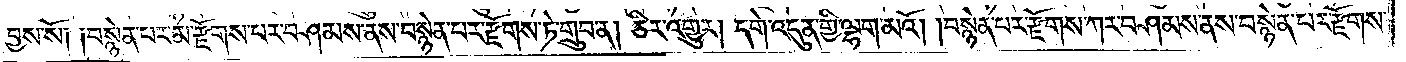བྱས་སོ། །བསྙེན་པར་མ་རྫོགས་པར་བཤམས་ནས་བསྙེན་པར་རྫོགས་ཏེ་གྲུབ་ན། ཅིར་འགྱུར། དགེ་འདུན་གྱི་ལྷག་མའོ། །བསྙེན་པར་རྫོགས་ཀར་བཤམས་ནས་བསྙེན་པར་རྫོགས་
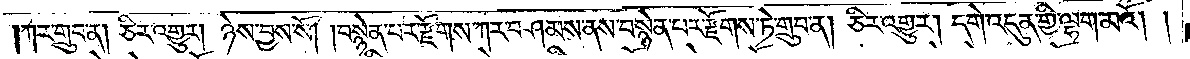ཀར་གྲུབ་ན། ཅིར་འགྱུར། ཉེས་བྱས་སོ། །བསྙེན་པར་རྫོགས་ཀར་བཤམས་ནས་བསྙེན་པར་རྫོགས་ཏེ་གྲུབ་ན། ཅིར་འགྱུར། དགེ་འདུན་གྱི་ལྷག་མའོ། །
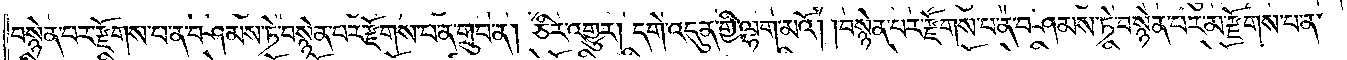བསྙེན་པར་རྫོགས་པ་ན་བཤམས་ཏེ་བསྙེན་པར་རྫོགས་པ་ན་གྲུབ་ན། ཅིར་འགྱུར། དགེ་འདུན་གྱི་ལྷག་མའོ། །བསྙེན་པར་རྫོགས་པ་ན་བཤམས་ཏེ་བསྙེན་པར་མ་རྫོགས་པ་ན་
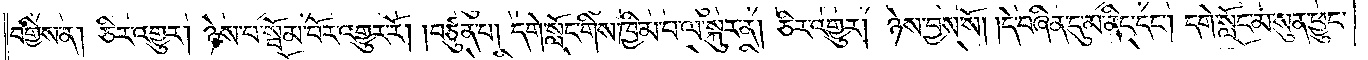བགྱིས་ན། ཅིར་འགྱུར། ཉེས་པ་སྦོམ་པོར་འགྱུར་རོ། །བཙུན་པ། དགེ་སློང་གིས་ཁྱིམ་པ་ལ་སྐུར་ན། ཅིར་འགྱུར། ཉེས་བྱས་སོ། །དེ་བཞིན་དུ་མ་ནིང་དང༌། དགེ་སློང་མ་སུན་ཕྱུང་
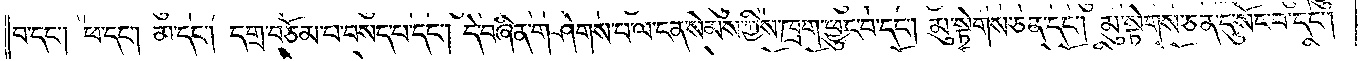བ་དང༌། ཕ་དང༌། མ་དང༌། དགྲ་བཅོམ་པ་བསད་པ་དང༌། དེ་བཞིན་གཤེགས་པ་ལ་ངན་སེམས་ཀྱིས་ཁྲག་ཕྱུང་བ་དང༌། མུ་སྟེགས་ཅན་དང༌། མུ་སྟེགས་ཅན་དུ་སོང་བ་དང༌།
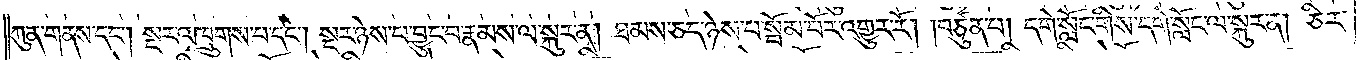ཀུན་གནས་དང༌། སྔར་འཁྲུགས་པ་དང༌། སྔར་ཉེས་པ་བྱུང་བ་རྣམས་ལ་སྐུར་ན། ཐམས་ཅད་ཉེས་པ་སྦོམ་པོར་འགྱུར་རོ། །བཙུན་པ། དགེ་སློང་གིས་དགེ་སློང་ལ་སྐུར་ན། ཅིར་
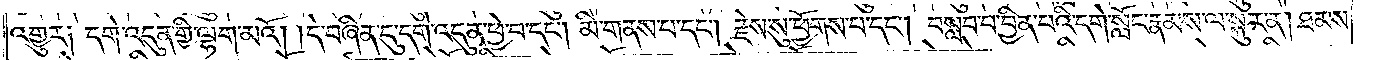འགྱུར༑ དགེ་འདུན་གྱི་ལྷག་མའོ། །དེ་བཞིན་དུ་དགེ་འདུན་ཕྱེ་བ་དང༌། མི་གནས་པ་དང༌། རྗེས་སུ་ཕྱོགས་པ་དང༌། བསླབ་པ་བྱིན་པའི་དགེ་སློང་རྣམས་ལ་སྐུར་ན། ཐམས་
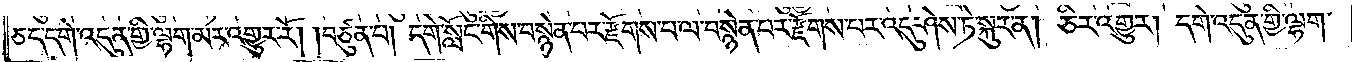ཅད་དགེ་འདུན་གྱི་ལྷག་མར་འགྱུར་རོ། །བཙུན་པ། དགེ་སློང་གིས་བསྙེན་པར་རྫོགས་པ་ལ་བསྙེན་པར་རྫོགས་པར་འདུ་ཤེས་ཏེ་སྐུར་ན། ཅིར་འགྱུར། དགེ་འདུན་གྱི་ལྷག་
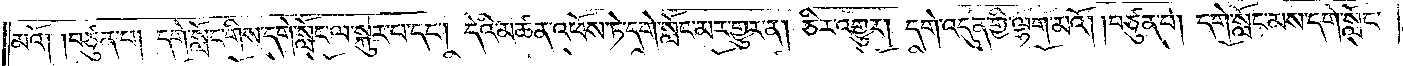མའོ། །བཙུན་པ། དགེ་སློང་གིས་དགེ་སློང་ལ་སྐུར་པ་དང༌། དེའི་མཚན་འཕོས་ཏེ་དགེ་སློང་མར་གྱུར་ན། ཅིར་འགྱུར། དགེ་འདུན་གྱི་ལྷག་མའོ། །བཙུན་པ། དགེ་སློང་མས་དགེ་སློང་
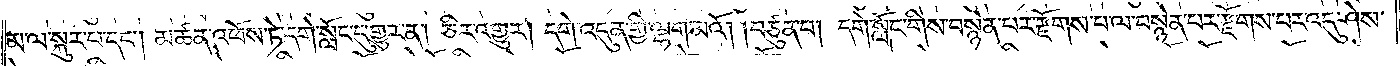མ་ལ་སྐུར་པ་དང༌། མཚན་འཕོས་ཏེ་དགེ་སློང་དུ་གྱུར་ན། ཅིར་འགྱུར། དགེ་འདུན་གྱི་ལྷག་མའོ། །བཙུན་པ། དགེ་སློང་གིས་བསྙེན་པར་རྫོགས་པ་ལ་བསྙེན་པར་རྫོགས་པར་འདུ་ཤེས་
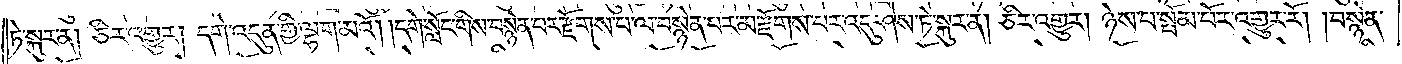ཏེ་སྐུར་ན། ཅིར་འགྱུར། དགེ་འདུན་གྱི་ལྷག་མའོ། །དགེ་སློང་གིས་བསྙེན་པར་རྫོགས་པ་ལ་བསྙེན་པར་མ་རྫོགས་པར་འདུ་ཤེས་ཏེ་སྐུར་ན། ཅིར་འགྱུར། ཉེས་པ་སྦོམ་པོར་འགྱུར་རོ། །བསྙེན་
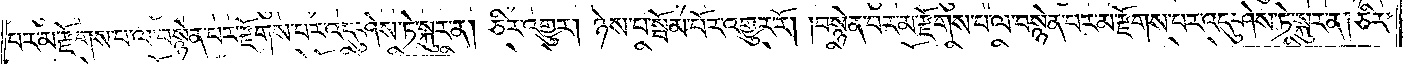པར་མ་རྫོགས་པ་ལ་བསྙེན་པར་རྫོགས་པར་འདུ་ཤེས་ཏེ་སྐུར་ན། ཅིར་འགྱུར། ཉེས་པ་སྦོམ་པོར་འགྱུར་རོ། །བསྙེན་པར་མ་རྫོགས་པ་ལ་བསྙེན་པར་མ་རྫོགས་པར་འདུ་ཤེས་ཏེ་སྐུར་ན། ཅིར་
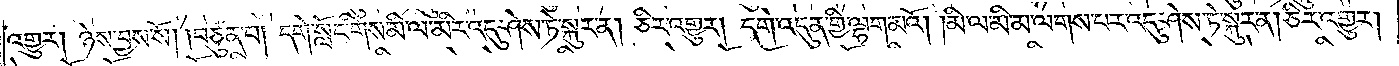འགྱུར། ཉེས་བྱས་སོ། །བཙུན་པ། དགེ་སློང་གིས་མི་ལ་མིར་འདུ་ཤེས་ཏེ་སྐུར་ན། ཅིར་འགྱུར། དགེ་འདུན་གྱི་ལྷག་མའོ། །མི་ལ་མི་མ་ལགས་པར་འདུ་ཤེས་ཏེ་སྐུར་ན། ཅིར་འགྱུར།
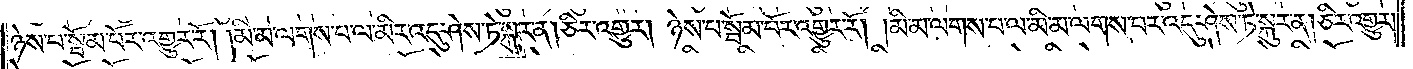ཉེས་པ་སྦོམ་པོར་འགྱུར་རོ། །མི་མ་ལགས་པ་ལ་མིར་འདུ་ཤེས་ཏེ་སྐུར་ན། ཅིར་འགྱུར། ཉེས་པ་སྦོམ་པོར་འགྱུར་རོ། །མི་མ་ལགས་པ་ལ་མི་མ་ལགས་པར་འདུ་ཤེས་ཏེ་སྐུར་ན། ཅིར་འགྱུར།
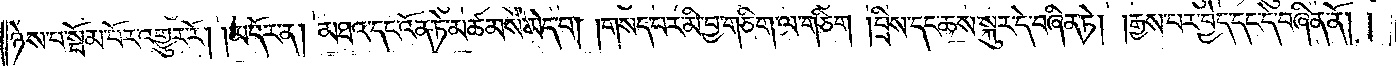ཉེས་པ་སྦོམ་པོར་འགྱུར་རོ། །མདོར་ན། མཐའ་དང་འོན་ཏེ་མཚམས་མེད་པ། །གསད་པར་མི་བྱ་གཅིག་ལ་གཅིག །བྲིས་དང་ཆས་སྐུར་དེ་བཞིན་ཏེ། །རྒྱས་པར་བྱེད་དང་དེ་བཞིན་ནོ། །
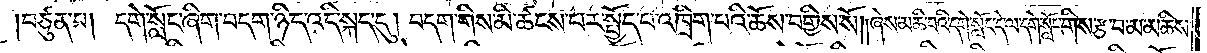།བཙུན་པ། དགེ་སློང་ཞིག་བདག་ཉིད་འདི་སྐད་དུ། བདག་གིས་མི་ཚངས་པར་སྤྱོད་པ་འཁྲིག་པའི་ཆོས་བགྱིས་སོ། །ཞེས་མཆི་བའི་དགེ་སློང་དེ་ལ་དགེ་སློང་གིས་རྩ་བ་མ་མཆིས་
